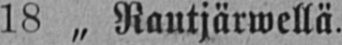18 „ Rautjärwellä.
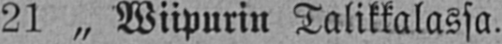21 „ Wiipurin Talikkalassa.
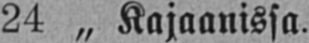24 „ Kajaanissa.
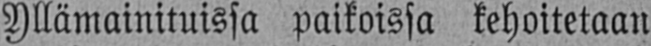Yllämainituissa paikoissa kehoitetaan
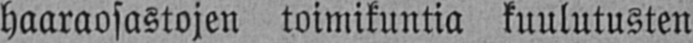haaraosastojen toimikuntia kuulutusten
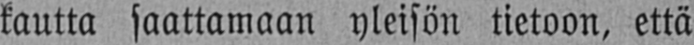kautta saattamaan yleisön tietoon, että
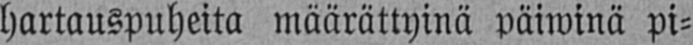hartauspuheita määrättyinä päiwinä pi-
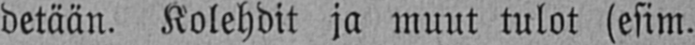detään. Kolehdit ja muut tulot (esim.
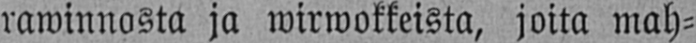rawinnosta ja wirwokkeista, joita mah-
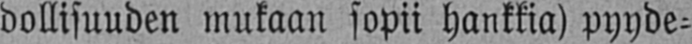dollisuuden mukaan sopii hankkia) pyyde-
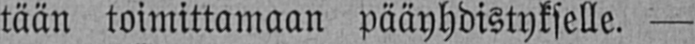tään toimittamaan pääyhdistykselle. —
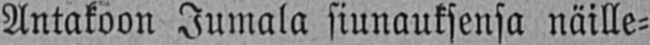Antakoon Jumala siunauksensa näille-
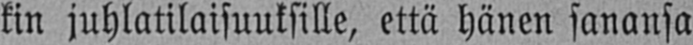kin juhlatilaisuuksille, että hänen sanansa
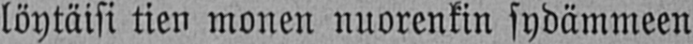löytäisi tien monen nuorenkin sydämmeen
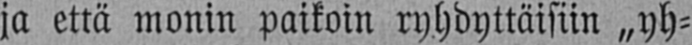ja että monin paikoin ryhdyttäisiin „yh-
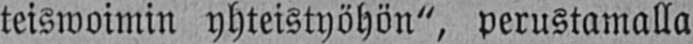teiswoimin yhteistyöhön", perustamalla
